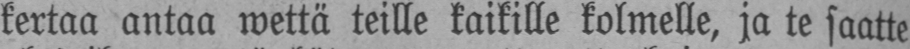kertaa antaa wettä teille kaikille kolmelle, ja te saatte
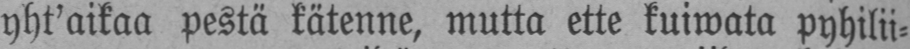yht'aikaa pestä kätenne, mutta ette kuiwata pyhilii-
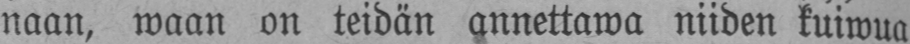naan, waan on teidän annettawa niiden kuiwua
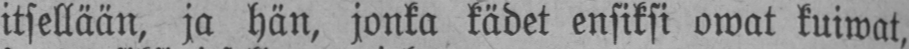itsellään, ja hän, jonka kädet ensiksi owat kuiwat,
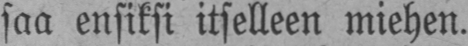saa ensiksi itselleen miehen.
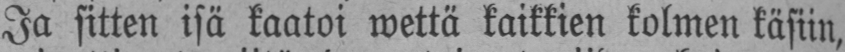Ja sitten isä kaatoi wettä kaikkien kolmen käsiin,
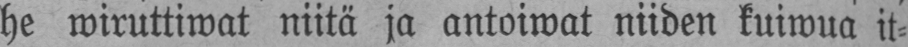he wiruttiwat niitä ja antoiwat niiden kuiwua it-
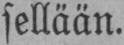sellään.
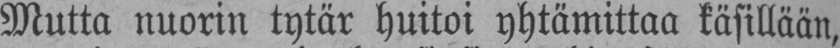Mutta nuorin tytär huitoi yhtämittaa käsillään,
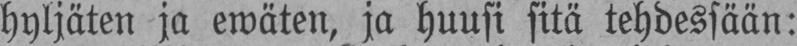hyljäten ja ewäten, ja huusi sitä tehdessään:
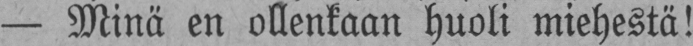— Minä en ollenkaan huoli miehestä!
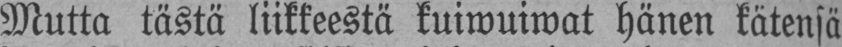Mutta tästä liikkeestä kuiwuiwat hänen kätensä
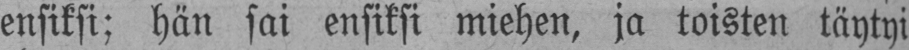ensiksi; hän sai ensiksi miehen, ja toisten täytyi
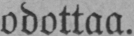odottaa.
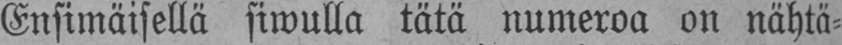Ensimäisellä siwulla tätä numeroa on nähtä-
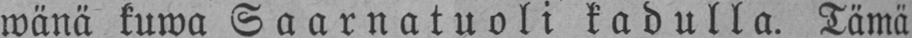wänä kuwa Saarnatuoli kadulla. Tämä
